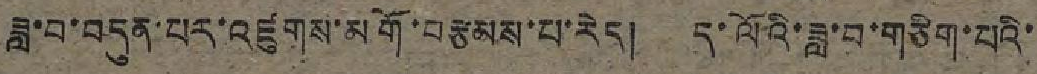ཟླ་བ་བདུན་པར་འཛུགས་མགོ་བརྩམས་པ་རེད། ད་ལོའི་ཟླ་བ་གཅིག་པའི་
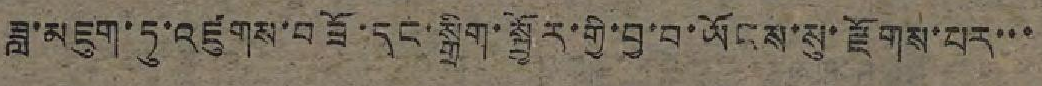ཟླ་མཇུག་ཏུ་འཛུགས་བཟོ་དང་སྒྲིག་སྦྱོར་གྱི་བྱ་བ་ཡོངས་སུ་རྫོགས་པར་་་
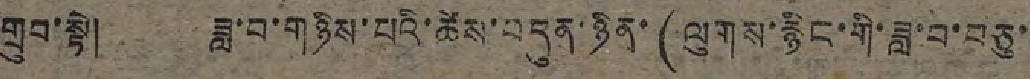གྲུབ་སྟེ། ཟླ་བ་གཉིས་པའི་ཚེས་བདུན་ཉིན་ (ལུགས་རྙིང་གི་ཟླ་བ་བཅུ་
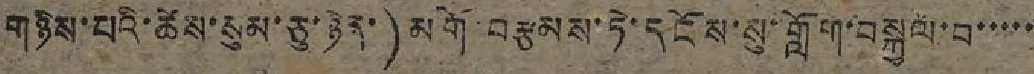གཉིས་པའི་ཚེས་སུམ་ཅུ་ཉིན་) མགོ་བརྩམས་ཏེ་དངོས་སུ་གློག་བསྐྱལ་བ་་་་་
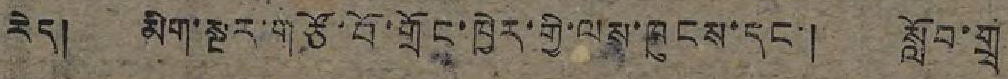རེད། མིག་སྔར་གཙོ་བོ་གྲོང་ཁྱེར་གྱི་ལས་ཁུངས་དང་། སློབ་གྲྭ
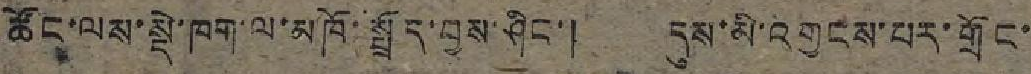ཚོང་ལས་སྡེ་ཁག་ལ་མཁོ་སྤྲོད་བྱས་ཤིང་། དུས་མི་འགྱངས་པར་གྲོང་
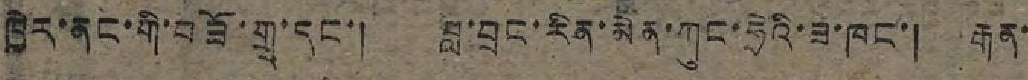ཁྱེར་ནང་གི་བཟོ་གྲྭ་དང་། བླ་བྲང་རིན་མེན་ཀུང་ཧྲེའི་ཟ་ཁང་། རྒན་
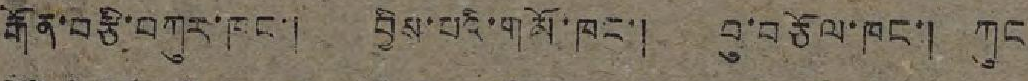རྒོན་བརྩི་བཀུར་ཁང་། བྱིས་པའི་གསོ་ཁང་། བུ་བཅོལ་ཁང་། ཀུང
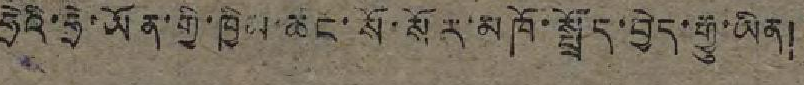ཧྲེའི་ཧྲེ་ཡོན་གྱི་ཁྱིམ་ཚང་སོ་སོར་མཁོ་སྤྲོད་བྱེད་རྒྱུ་ཡིན།
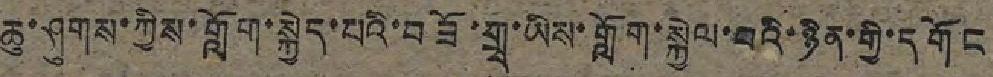ཆུ་ཤུགས་ཀྱིས་གློག་སྐྱེད་པའི་བཟོ་གྲྭ་ཡིས་གློག་སྐྱེལ་བའི་ཉིན་གྱི་དགོང
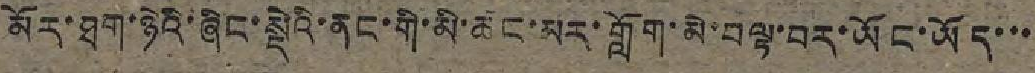མོར་ཐག་ཉེའི་ཞིང་སྡེའི་ནང་གི་མི་ཚང་མར་གློག་མེ་བལྟ་བར་ཡོང་ཡོད་་་
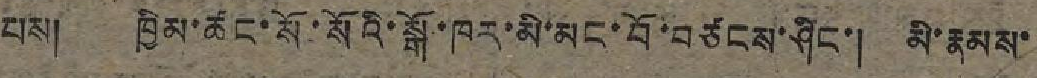པས། ཁྱིམ་ཚང་སོ་སོའི་སྒོ་ཁར་མི་མང་བོ་བཙངས་ཤིང་། མི་རྣམས་
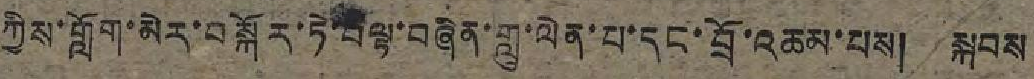ཀྱིས་གློག་མེར་བསྐོར་ཏེ་བལྟ་བཞིན་གླུ་ལེན་པ་དང་བྲོ་འཆམ་པས། སྐབས
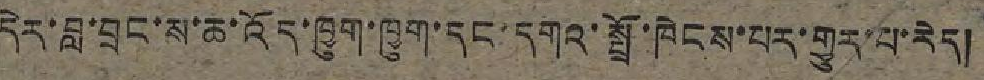དེར་བླ་བྲང་ས་ཆ་འོད་ཁྱུག་ཁྱུག་དང་དགའ་སྤྲོ་ཁེངས་པར་གྱུར་པ་རེད།
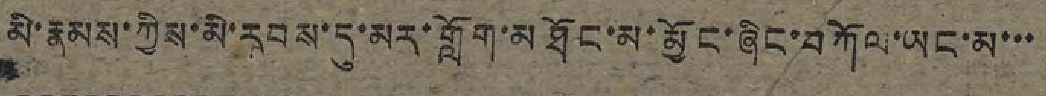མི་རྣམས་ཀྱིས་མེ་རབས་དུ་མར་གློག་མཐོང་མ་མྱོང་ཞིང་བཀོལ་ཡང་མ་་་
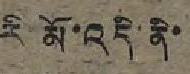རི མོ་འདི་ནི་
